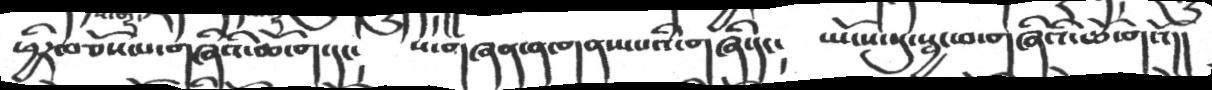ཕྱིར་བཅོས་པ་གཞིའི་ཆོ་ག་དང།  ས་གཞན་ན་གནས་པའི་གཞི་དང།  ཡོངས་སུ་སྦྱང་བ་གཞིའི་ཆོ་གའོ།།
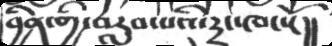བྱིན་གྱི་བརླབ་པའི་རུང་ཁངསོ།།
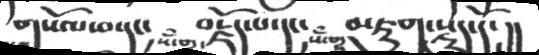གསོལ་བ་དང༴  བརྗོད་པ་དང༴  མཇུག་སྡུད་དོ༴།།
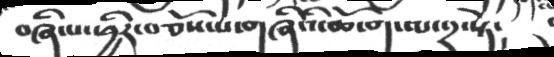བཞི་པ་ཕྱིར་བཅོས་པ་གཞིའི་ཆོ་ག་ལ་༢་སྟེ།
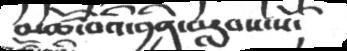མཚོ་བའི་བྱིན་བརླབས་སོ།
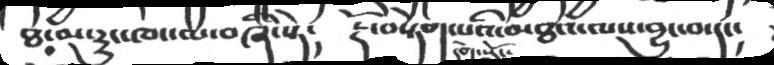ཐ་མ་རུང་ཁང་ལ་བཞི་སྟེ༴  རྡོ་བསྟེག་པའི་མཐའ་ལས་བྱུང་བ་དང༴
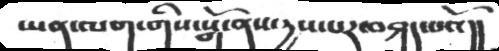ཡན་ལག་གིས་སྒོ་ནས་དྱས་པར་བཤད་པའོ།
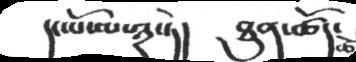དང་པོ་ལ་༣་ཏེ།  ཐུན་ཚོད་ཚེ
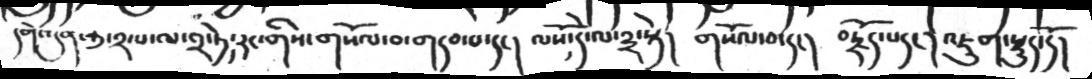དགེ་འདུན་ ༢་པ་ལ་༢་ཏེ་རང་གིས་གསལ་བ་གདབ་པ་དང།  ལསོ་དེ་ལ་༣་སྟེ།   གསོལ་བ་དང།    བརྗོད་པདང།   འཇུག་སྡུད་དོ།
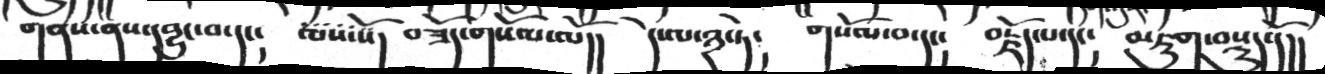གནས་ནས་དབྱུང་བ་དང།  ལས་ལོ།  བཟོད་གཟོད་གསོལ་ལོ།།     དེ་ལ་༣་ཏེ།  གསོལ་བ་དང།   བརྗོད་པ་དང།   མཇུག་བསྡུད་དོ།།
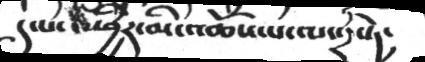ད་པ་ཕྱི་འཆོས་པ་ལ་༢ཏེ།
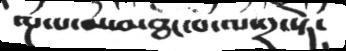ལྔ་པ་མ་མཐའ་པ་ལ་༢་སྟེ།
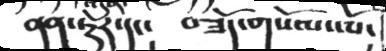ནན་ཏུར་དང༴  བཟོད་གསོལ་ལོ༴
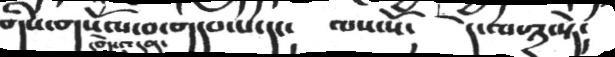གིས་གསོལ་བ་གདབ་པ་དང༴  ལས་སོ༴  དེ་ལ་༣་སྟེ༴
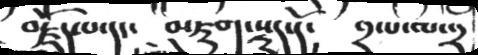བརྗོད་པ་དང།   མཇུག་སྡུད་དོ། ༢་པ་ལ་༢
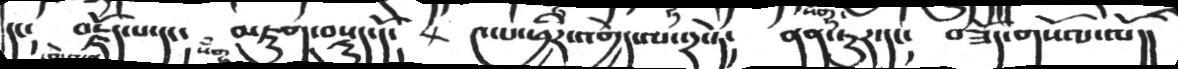དང༴  བརྗོད་པ་དང༴   མཇུག་བསྡུད་དོ༴  ༤་པ་ཕྱིར་འགྱེད་ལ་༢་ཏེ༴  ནན་ཏུར་དང༴   བཟོད་གསོལ་ལོ།།
